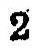2
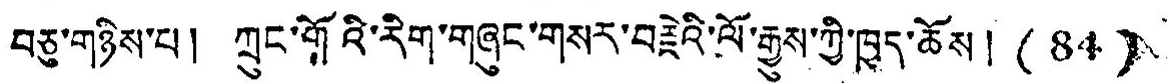བཅུ་གཉིས་པ། ཀྲུང་གོའི་རིག་གཞུང་གསར་བརྗེའི་ལོ་རྒྱུས་ཀྱི་ཁྱད་ཆོས།（84）
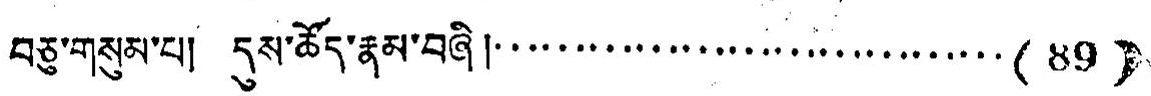བཅུ་གསུམ་པ། དུས་ཚོད་རྣམ་བཞི།...............................（89）
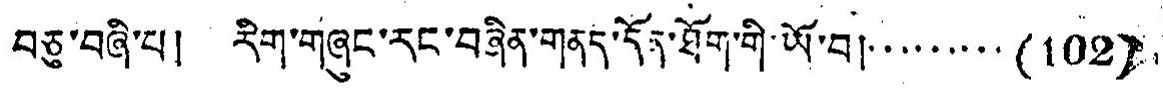བཅུ་བཞི་པ། རིག་གཞུང་རང་བཞིན་གནད་དོན་ཐོག་གི་ཡོ་བ།.........（102）
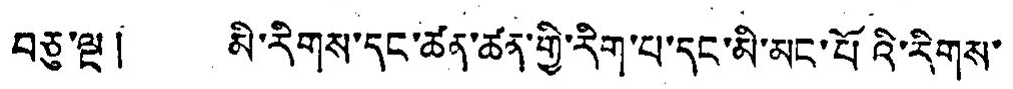བཅུ་ལྔ། མི་རིགས་དང་ཚན་ཚན་གྱི་རིག་པ་དང་མི་མང་པོའི་རིགས་
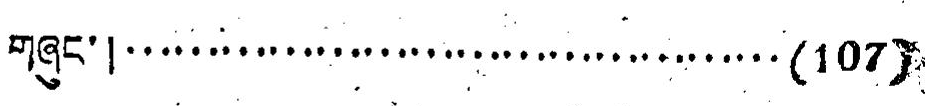གཞུང་།........................................（107）
